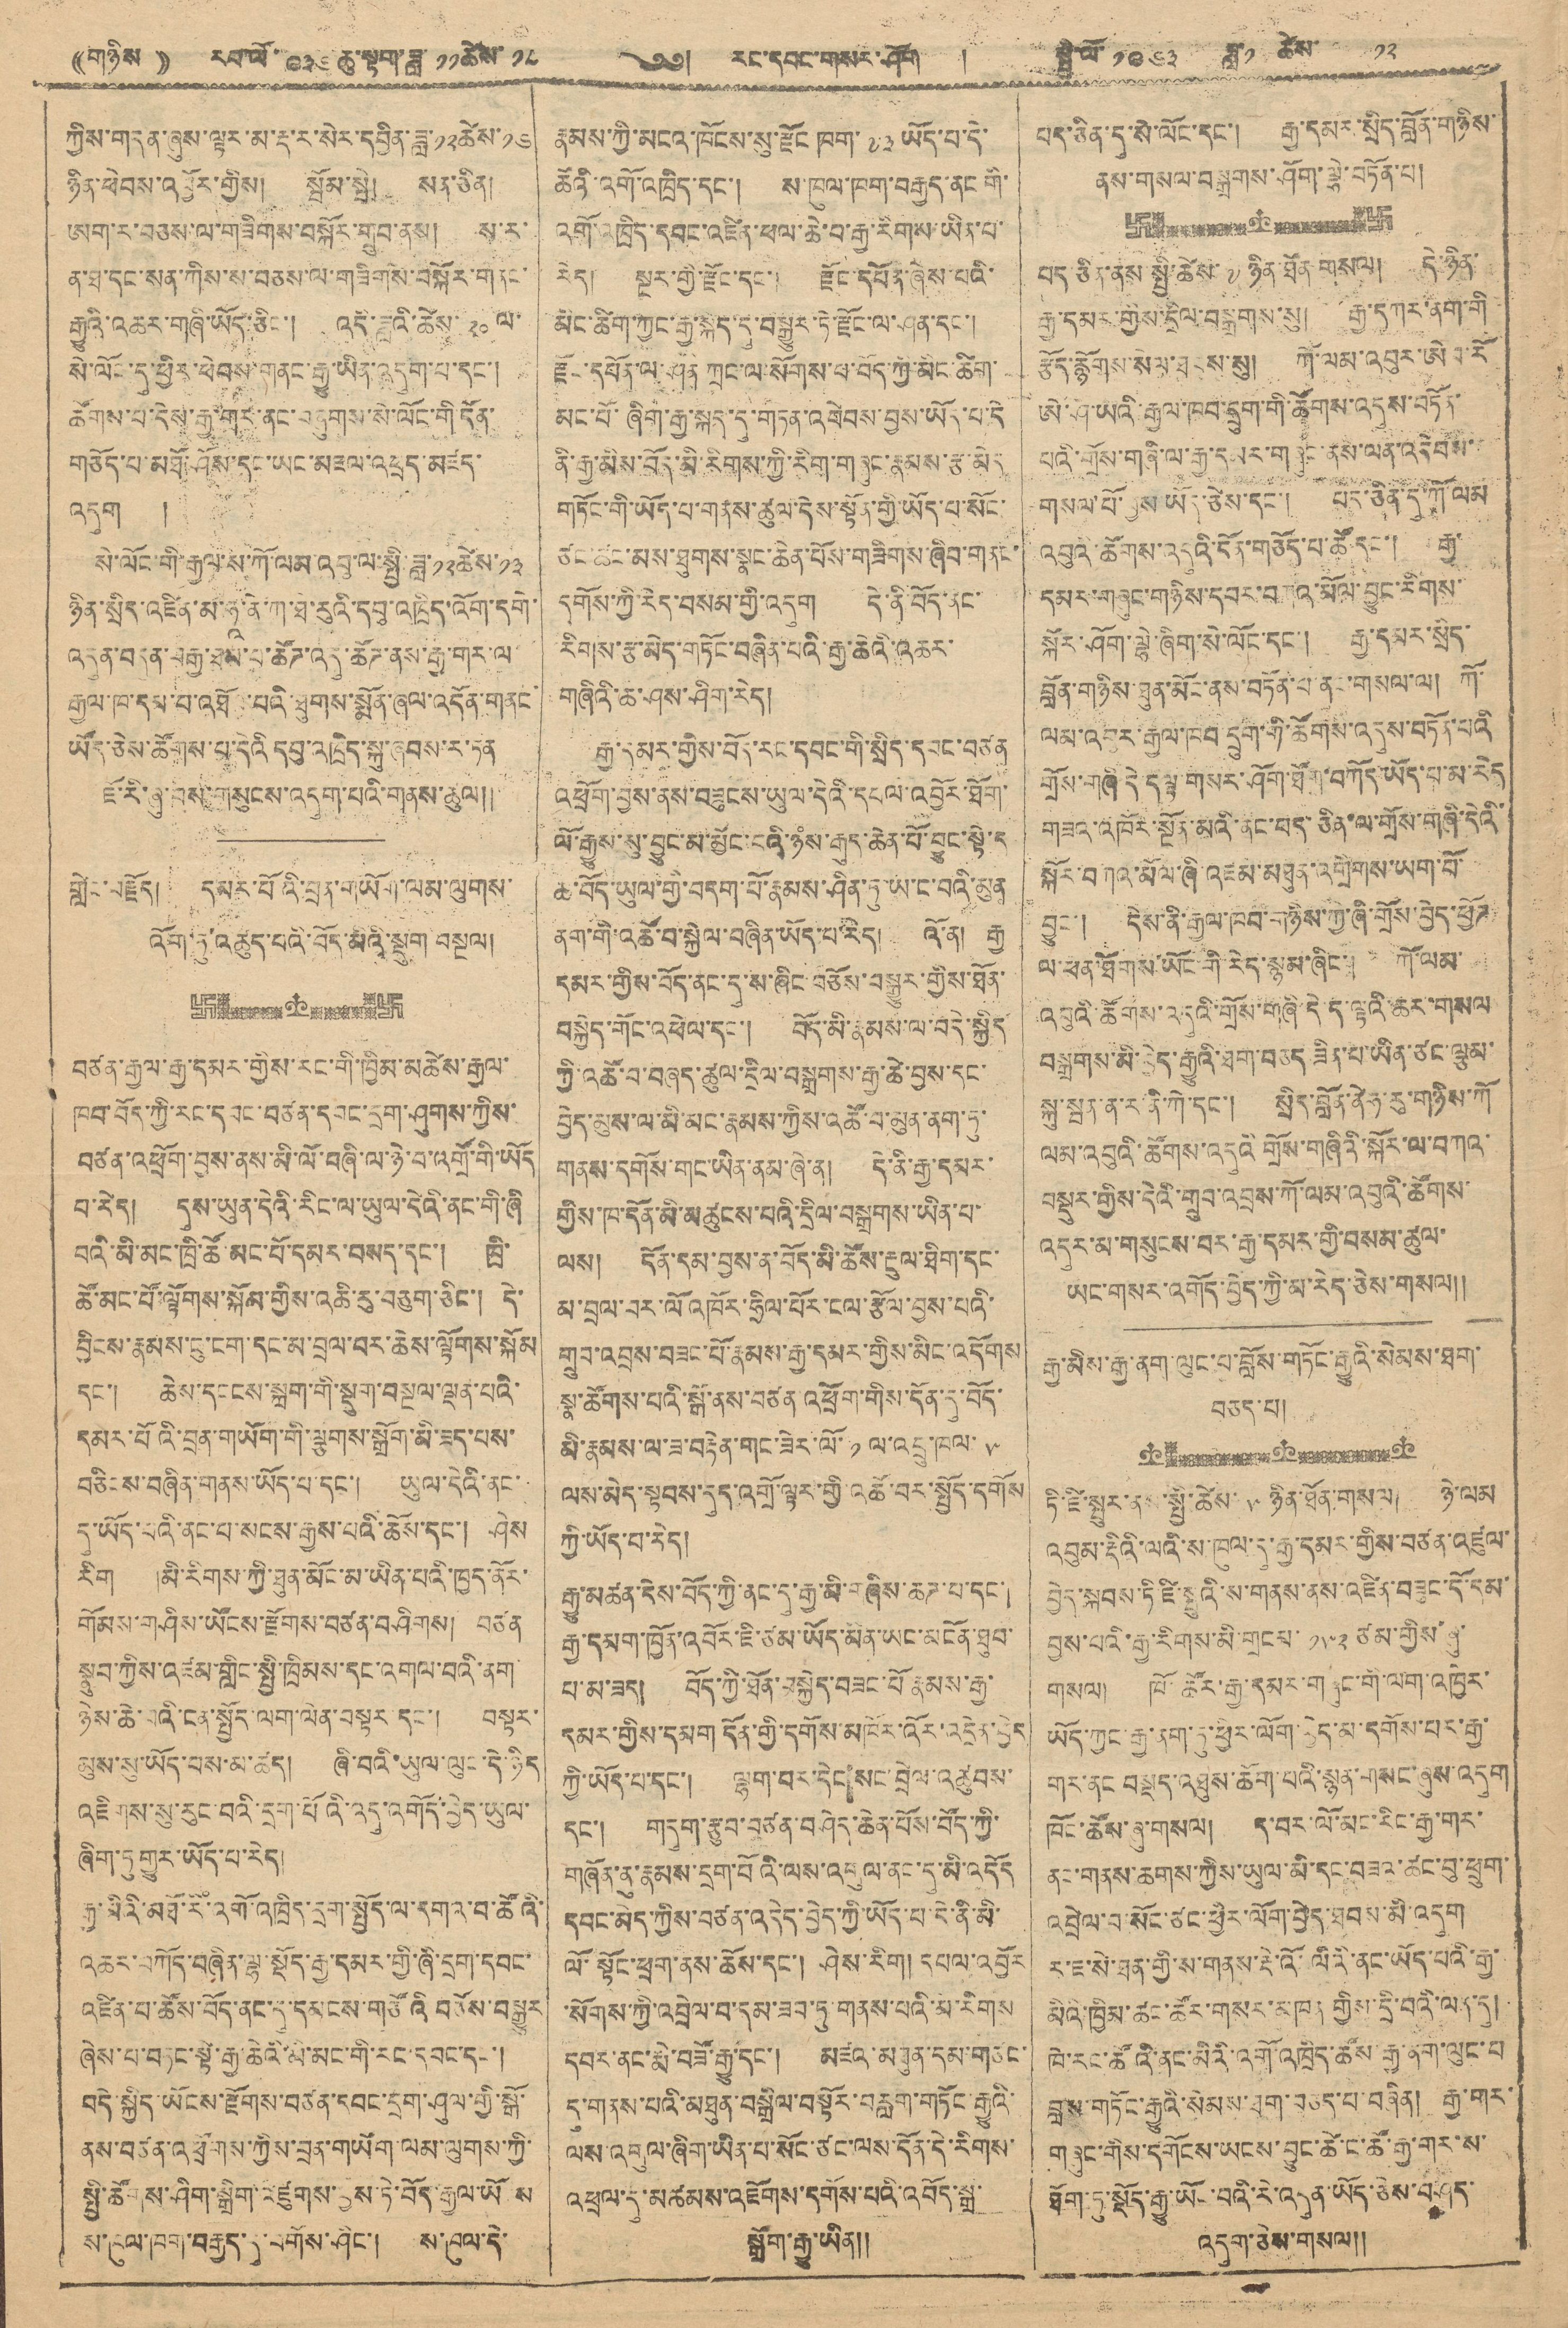((གཉིས་ )) རབ་ལོ་ ༩༣༦ ཆུ་སྟག་ཟླ་ ༡༡ཚེས་ ༡༨ ༄༅། རང་དབང་གསར་ཤོག །སྤྱི་ལོ ༡༩༦༣ ཟླ་ ༡  ཚེས་ ༡༢
ཀྱིས་གདན་ཞུས་ལྟར་མ་རྡ་ར་སེར་དབྱིན་ཟླ་ ༡༢ཚེས་ ༡༦
ཉིན་ཕེབས་འབྱོར་གྱིས། སྦོམ་སྤེ། སན་ཅིན།
ཨག་ར་བཅས་ལ་གཟིགས་བསྐོར་གྲུབ་ནས། ས་ར་
ན་ཐ་དང་སན་ཀིས་ས་བཅས་ལ་གཟིགས་བསྐོར་གནང་
རྒྱུའི་འཆར་གཞི་ཡོད་ཅིང་། འདི་ཟླའི་ཚེས་ ༢༠ ལ་
སེ་ལོང་དུ་ཕྱིར་ཕེབས་གནང་རྒྱུ་ཡིན་འདུག་པ་དང་།
ཚོགས་པ་དེས་རྒྱ་གར་ནང་བཞུགས་སེ་ལོང་གི་དོན་
གཅོད་པ་མཐོ་ཤོས་དང་ཡང་མཇལ་འཕྲད་མཛད་
འདུག །
སེ་ལོང་གི་རྒྱལ་ས་ཀོ་ལམ་འབུ་ལ་སྤྱི་ཟླ་ ༡༢ཚེས་༡༣
ཉིན་སྲིད་འཛིན་མ་ཧཱ་ནེ་ཀ་ཐེ་རུའི་དབུ་འཁྲིད་འོག་དགེ་
འདུན་བདུན་བརྒྱ་ཐམ་པ་ཚོཊ་འདུ་ཚོཊ་ནས་རྒྱ་གར་ལ་
རྒྱལ་ཁབ་དམ་པ་འཐོབ་པའི་ཐུགས་སྨོན་ཞལ་འདོན་གནང
ཡོད་ཅེས་ཚོགས་པ་དེའི དབུ་འཁྲིད་སྐུ་ཞབས་ར་ཏན
ཇོ་རི་ཞུ་བས་གསུངས་འདུག་པའི་གནས་ཚུལ།།
གླེང་བརྗོད། དམར་པོའི་བྲན་གཡོག་ལམ་ལུགས་
འོག་ཏུ་འཚུད་པའི་བོད་མིའི་སྡུག བསྔལ།
བཙན་རྒྱལ་རྒྱ་དམར་གྱིས་རང་གི་ཁྱིམ་མཚེས་རྒྱལ་
ཁབ་བོད་ཀྱི་རང་དབང་བཙན་དབང་དྲག་ཤུགས་ཀྱིས་
བཙན་འཕྲོག་བྱས་ནས་མི་ལོ་བཞི་ལ་ཉེ་བ་འགྲོ་གི་ཡོད
བ་རེད། དུས་ཡུན་དེའི་རིང་ལ་ཡུལ་དེའི་ནང་གི་ཞི
བའི་མི་མང་ཁྲི་ཚོ་མང་པོ་དམར་བསད་དང་། ཁྲི་
ཚོ་མང་པོ་ལྟོགས་སྐོམ་གྱིས་འཆི་རུ་བཅུག་ཅིང་། དེ་
བྱིངས་རྣམས་ངུ་ངག་དང་མ་བྲལ་བར་ཆེས་ལྟོགས་སྐོམ
དང་། ཆེས་དངངས་སྐྲག་གི་སྡུག་བསྔལ་ལྡན་པའི་
དམར་པོའི་བྲན་གཡོག་གི་ལྕགས་སྒྲོག་མི་ཟད་པས་
བཅིངས་བཞིན་གནས་ཡོད་པ་དང་། ཡུལ་དེའི་ནང་
དུ་ཡོད་པའི་ནང་པ་སངས་རྒྱས་པའི་ཆོས་དང་། ཤེས
རིག །མི་རིགས་ཀྱི་ཐུན་མོང་མ་ཡིན་པའི་ཁྱད་ནོར་
གོམས་གཤིས་ཡོངས་རྫོགས་བཙན་བཤིགས། བཙན
སྣུབ་ཀྱིས་འཛམ་གླིང་སྤྱི་ཁྲིམས་དང་འགལ་བའི་ནག་
ཉེས་ཆེ་བའི་ངན་སྦྱོད་ལག་ལེན་བསྟར་དང་། བསྟར་
མུས་སུ་ཡོད་པས་མ་ཚད། ཞི་བའི་ཡུལ་ལུང་དེ་ཉིད
འཇིགས་སུ་རུང་བའི་དྲག་པོའི་འདུ་འགོད་བྱེད་ཡུལ་
ཞིག་ཏུ་གྱུར་ཡོད་པ་རེད།
རྒྱ་མིའི་མཐོ་རི་འགོ་འཁྲིད་དྲག་སྤྱོད་ལ་དགའ་བ་ཚོའི་
འཆར་བཀོད་བཞིན་ལྷ་སྡོད་རྒྱ་དམར་གྱི་ཞི་དྲག་དབང་
འཛིན་པ་ཚོས་བོད་ནང་དུ་དམངས་གཙོའི་བཅོས་བསྒྱུར
ཞེས་པ་བཏང་སྟེ་རྒྱ་ཆེའི་མི་མང་གི་རང་དབང་དང་།
བདེ་སྐྱིད་ཡོངས་རྫོགས་བཙན་དབང་དྲག་ཤུལ་གྱི་སྒོ་
ནས་བཙན་འཕྲོགས་ཀྱིས་བྲན་གཡོག་ལམ་ལུགས་ཀྱི་
སྤྱི་ཚོགས་ཤིག་སྒྲིག་འཛུགས་བྱས་ཏེ་བོད་རྒྱལ་ཡོངས་
ས་ཁུལ་ཁག་བརྒྱད་དུ་བགོས་ཤིང་། ས་ཁུལ་དེ་
རྣམས་ཀྱི་མངའ་ཁོངས་སུ་རྫོང་ཁག་ ༧༣ ཡོད་པ་དེ་
ཚོའི་འགོ་འཁྲིད་དང་། ས་ཁུལ་ཁག་བརྒྱད་ནང གི་
འགོ་འཁྲིད་དབང་འཛིན་ཕལ་ཆེ་བ་རྒྱ་རིགས་ཡིན་པ་
རེད། སྔར་གྱི་རྫོང་དང་། རྫོང་དཔོན་ཞེས་པའི་
མིང་ཚིག་ཀྱང་རྒྱ་སྐད་དུ་བསྒྱུར་ཏེ་རྫོང་ལ་ཤན་དང་།
རྫོང་དཔོན་ལ་ཤན་ཀྲང་ལ་སོགས་པ་བོད་ཀྱི་མིང་ཚིག་
མང་པོ་ཞིག་རྒྱ་སྐད་དུ་གཏན་འབེབས་བྱས་ཡོད་པ་དེ
ནི་རྒྱ་མིས་བོད་མི་རིགས་ཀྱི་རིག་གཞུང་རྣམས་རྩ་མེད
གཏོང་གི་ཡོད་པ་གནས་ཚུལ་དེས་སྟོན་གྱི་ཡོད་པ་སོང་
ཙང་ཚང་མས་ཐུགས་སྣང་ཆེན་པོས་གཟིགས་ཞིབ་གནང་
དགོས་ཀྱི་རེད་བསམ་གྱི་འདུག དེ་ནི་བོད་ནང་
རིགས་རྩ་མེད་གཏོང་བཞིན་པའི་རྒྱ་ཆེའི་འཆར་
གཞིའི་ཆ་ཤས་ཤིག་རེད།
རྒྱ་དམར་གྱིས་བོད་རང་དབང་གི་སྲིད་དབང་བཙན
འཕྲོག་བྱས་ནས་བཟུངས་ཡུལ་དེའི་དཔལ་འབྱོར་ཐོག་
ལོ་རྒྱུས་སུ་བྱུང་མ་མྱོང་ངའི་ཉཾས་རྒུད་ཆེན་པོ་བྱུང་སྟེ་ད
ཆ་བོད་ཡུལ་གྱི་བདག་པོ་རྣམས་ཤིན་ཏུ་ཡ་ང་བའི་མུན
ནག་གི་འཚོ་བ་སྐྱེལ་བཞིན་ཡོད་པ་རེད། འོ་ན། རྒྱ
དམར་གྱིས་བོད་ནང་དུ་ས་ཞིང་བཅོས་བསྒྱུར་གྱིས་ཐོན་
བསྐྱེད་གོང་འཕེལ་དང་། བོད་མི་རྣམས་ལ་བདེ་སྐྱིད
ཀྱི་འཚོ་བ་བཞད་ཚུལ་དྲིལ་བསྒྲགས་རྒྱ་ཆེ་བྱས་དང་
བྱེད་མུས་ལ་མི་མང་རྣམས་ཀྱིས་འཚོ་བ་མུན་ནག་ཏུ་
གནས་དགོས་གང་ཡིན་ནམ་ཞེ་ན། དེ་ནི་རྒྱ་དམར་
གྱིས་ཁ་དོན་མི་མཚུངས་པའི་དྲིལ་བསྒྲགས་ཡིན་པ་
ལས། དོན་དམ་བྱས་ན་བོད་མི་ཚོས་རྔུལ་ཐིག་དང་
མ་བྲལ་བར་ལོ་འཁོར་ཧྲིལ་པོར་ངལ་རྩོལ་བྱས་པའི་
གྲུབ་འབྲས་བཟང་པོ་རྣམས་རྒྱ་དམར་གྱིས་མིང་འདོགས
སྣ་ཚོགས་པའི་སྒོ་ནས་བཙན་འཕྲོག་གིས་དོན་དུ་བོད་
མི་རྣམས་ལ་ཟ་བརྟེན་གང་ཟེར་ལོ་ ༡ ལ་འབྲུ་ཁལ་ ༥
ལས་མེད་སྟབས་དུད་འགྲོ་ལྟར་གྱི་འཚོ་བར་སྤྱོད་དགོས
ཀྱི་ཡོད་པ་རེད།
རྒྱུ་མཚན་དེས་བོད་ཀྱི་ནང་དུ་རྒྱ་མི་གཞིས་ཆཊ་པ་དང་།
རྒྱ་དམག་ཁྱོན་འབོར་ཇི་ཙམ་ཡོད་མིན་ཡང་མངོན་ཐུབ་
པ་མ་ཟད། བོད་ཀྱི་ཐོན་བསྐྱེད་བཟང་པོ རྣམས་རྒྱ་
དམར་གྱིས་དམག དོན་གྱི་དགོས་མཁོར་འོར་འདྲེན་བྱེད
ཀྱི་ཡོད་པ་དང་། ལྷག་བར་དེང་སང་བྲེལ་འཚུབས་
དང་། གདུག་རྩུབ་བཙན་བཤེད་ཆེན་པོས་བོད་ཀྱི་
གཞོན་ནུ་རྣམས་དྲག་པོའི་ལས་འགུལ་ནང་དུ་མི་འདོད
དབང་མེད་ཀྱིས་བཙན་འདེད་བྱེད་ཀྱི་ཡོད་པ་དེ་ནི་མི
ལོ་སྟོང་ཕྲག་ནས་ཆོས་དང་། ཤེས་རིག། དཔལ་འབྱོར
་སོགས་ཀྱི་འབྲེལ་བ་དམ་ཟབ་ཏུ་གནས་པའི་མི་རིགས
དབར་ནང་མི་བཟོ་རྒྱུ་དང་། མཛའ་མཐུན་དམ་གཙང་
དུ་གནས་པའི་མཐུན་བསྒྲིལ་བསྟོར་བརླག་གཏོར་རྒྱུའི་
ལས་འགུལ་ཞིག་ཡིན་པ་སོང་ཙང་ལས་དོན་དེ་རིགས་
འཕྲལ་དུ་མཚམས་འཇོགས་དགོས་པའི་འབོད་སྒྲ་
སྒྲོག་རྒྱུ་ཡིན།།
པད་ཅིན་དུ་སེ་ལོང་དང་། རྒྱ་དམར་སྲིད་བློན་གཉིས་
ནས་གསལ་བསྒྲགས་ཤོག་ལྷེ་བཏོན་པ།
པད་ཅིན་ནས་སྤྱི་ཚེས་ ༧ ཉིན་ཐོན་གསལ། དེ་ཉིན་
རྒྱ་དམར་གྱིས་དྲིལ་བསྒྲགས་སུ། རྒྱ་དཀར་ནག་གི
རྩོད་རྙོགས་སེལ་ཐངས་སུ། ཀོ་ལམ་འབུར་ཨེབ་རོ་
ཨེ་ཤ་ཡའི་རྒྱལ་ཁབ་དྲུག་གི་ཚོགས་འདུས་བཏོན་
པའི་གྲོས་གཞི་ལ་རྒྱ་དམར་གཞུང་ནས་ལན་འདེབས་
གསལ་པོ་བྱས་ཡོད་ཅེས་དང་། པད་ཅིན་དུ་ཀོ་ལམ
འབུའི་ཚོགས་འདུའི་དོན་གཅོད་པ་ཚོ་དང་། རྒྱ་
དམར་གཞུང་གཉིས་དབར་བཀའ་མོལ་བྱུང་རིགས་
སྐོར་ཤོག་ལྟེ་ཞིག་སེ་ལོང་དང་། རྒྱ་དམར་སྲིད་
བློན་གཉིས་ཐུན་མོང་ནས་བཏོན་པ་ནང་གསལ་ལ། ཀོ་
ལམ་འབུར་རྒྱལ་ཁབ་དྲུག་གི་ཚོགས་འདུས་བཏོན་པའི
གྲོས་གཞི་དེ ད ལྟ གསར་ཤོག་ཐོག་བཀོད་ཡོད་པ་མ་རེད
གཟའ་འཁོར་སྔོན་མའི་ནང་པད་ཅིན་ལ་གྲོས་གཞི་དེའི་
སྐོར་བཀའ་མོལ་ཞི་འཇམ་མཐུན་འགྲིགས་ཡག་པོ་
བྱུང་། དེས་ནི་རྒྱལ་ཁབ་གཉིས་གྱི་ཞི་གྲོས་བྱེད་ཕྱོཊ
ལ་ཕན་ཐོགས་ཡོང་གི་རེད་སྙམ་ཞིང་། ཀོ་ལམ་
འབུའི་ཚོགས་འདུའི་གྲོས་གཞི་དེ་ད་ལྟའི་ཆར་གསལ་
བསྒྲགས་མི་བྱེད་རྒྱུའི་ཐག་བཅད་ཟིན་པ་ཡིན་ཙང་ལྕམ་
སྐུ་སྦན་ན་ར་ནི་ཀེ་དང་། སྲིད་བློན་ནེཧ་རུ་གཉིས་ཀོ
ལམ་འབུའི་ཚོགས་འདུའི གྲོས་གཞིའི་སྐོར་ལ་བཀའ་
བསྡུར་གྱིས་དེའི་གྲུབ་འབྲས་ཀོ་ལམ་འབུའི་ཚོགས་
འདུར་མ་གསུངས་བར་རྒྱ་དམར་གྱི་བསམ་ཚུལ་
ཡང་གསར་འགོད་བྱེད་ཀྱི་མ་རེད་ཅེས་གསལ།།
རྒྱ་མིས་རྒྱ་ནག་ལུང་པ་བློས་གཏོང་རྒྱུའི་སེམས་ཐག་
བཅད་པ།
ཏི་ཛི་སྤུར་ནས་སྤྱི་ཚེས་ ༥ ཉིན་ཐོན་གསལ། ཉེ་ལམ
འབུམ་རྡིའི་ལའི་ས་ཁུལ་དུ་རྒྱ་དམར་གྱིས་བཙན་འཛུལ་
བྱེད་སྐབས་ཏི་ཛི་སྤུའི་ས་གནས་ནས་འཛིན་བཟུང་དོ་དམ་
བྱས་པའི་རྒྱ་རིགས་མི་གྲངས་ ༡༥༢ ཙམ་གྱིས་ཞུ་
གསལ། ཁོ་ཚོར་རྒྱ་དམར་གཞུང་གི་ལག་འཁྱེར་
ཡོད་ཀྱང་རྒྱ་ནག་ཏུ་ཕྱིར་ལོག་བྱེད་མ་དགོས་པར་རྒྱ་
གར་ནང བསྡད་འཐུས་ཆོག་པའི་སྙན་གསང་ཞུས་འདུག
ཁོང་ཚོས་ཞུ་གསལ། ད་བར་ལོ་མང་རིང་རྒྱ་གར་
ནང་གནས་ཆགས་ཀྱི་ཡུལ་མི་དང་བཟའ་ཚང་བུ་ཕྲུག་
འབྲེལ་བ་སོང་ཙང་ཕྱིར་ལོག་བྱེད་ཐབས་མི་འདུག
ར་ཇ་སེ་ཐན་གྱི་ས་གནས་རྡོ་འོ་ལིའི་ནང་ཡོད་པའི་རྒྱ་
མིའི་ཁྱིམ་ཚང་ཚོར་གསར་མཁན གྱིས་དྲི་བའི་ལན་དུ།
ཁེ་རང་ཚོའི་ནང་མིའི་འགོ་འཁྲིད་ཚོས་རྒྱ་ནག་ལུང་པ
བློས་གཏོང་རྒྱུའི་སེམས་ཐག་བཅད་པ་བཞིན། རྒྱ་གར་
གཞུང་གིས་དགོངས་ཡངས་བྱུང་ཚེ་ང་ཚོ་རྒྱ་གར་ས་
ཐོག་ཏུ་སྡོད་རྒྱུ་ཡོང་བའི་རེ་འདུན་ཡོད་ཅེས་བཤད་
འདུག་ཅེས་གསལ།།
